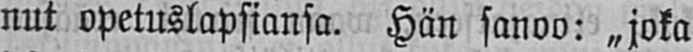nut opetuslapsiansa. Hän sanoo: „joka
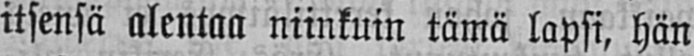itsensä alentaa niinkuin tämä lapsi, hän
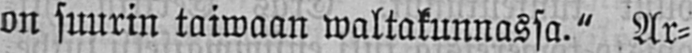on suurin taiwaan waltakunnassa." Ar-
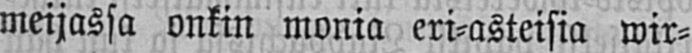meijassa onkin monia eri-asteisia wir-
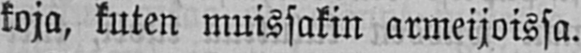koja, kuten muissakin armeijoissa.
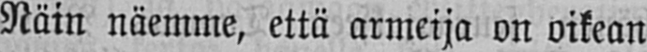Näin näemme, että armeija on oikean
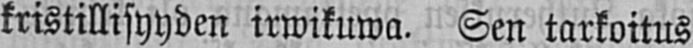kristillisyyden irwikuwa. Sen tarkoitus
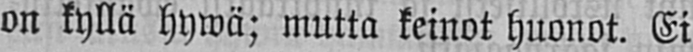on kyllä hywä; mutta keinot huonot. Ei
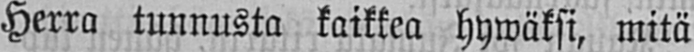Herra tunnusta kaikkea hywäksi, mitä
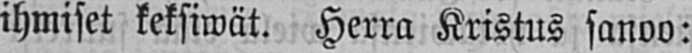ihmiset keksiwät. Herra Kristus sanoo:
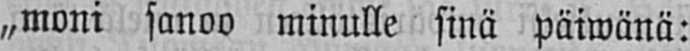„moni sanoo minulle sinä päiwänä:
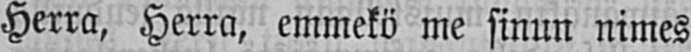Herra, Herra, emmekö me sinun nimes
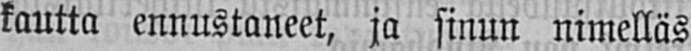kautta ennustaneet, ja sinun nimelläs
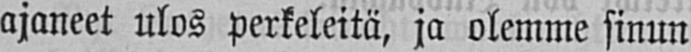ajaneet ulos perkeleitä, ja olemme sinun
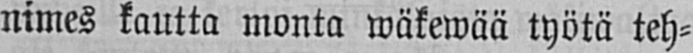nimes kautta monta wäkewää työtä teh-
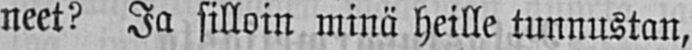neet? Ja silloin minä heille tunnustan,
